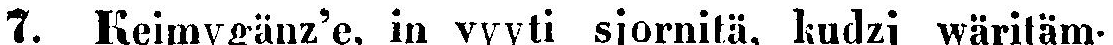7. Keimygänz'e, in vyyti sjornitä, kudzj wäritäm-
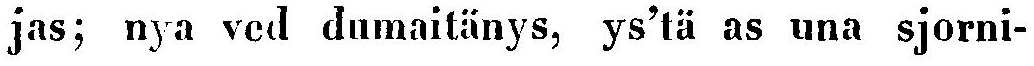jas; nya ved dumaitänys, ys'tä as una sjorni-
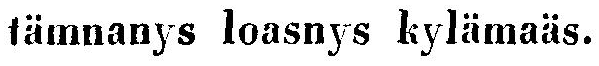tämnanys loasnys kylämaäs.
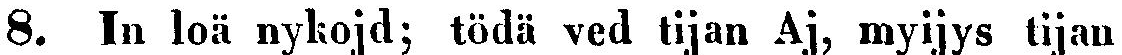8. In loä nykojd; tödä ved tijan Aj, myijys tijan
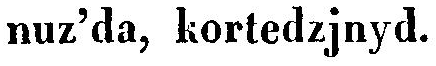nuz'da, kortedzjnyd.
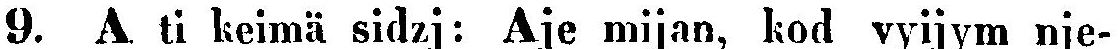9. A ti keimä sidzj: Aje mijan, kod vyijym nje-
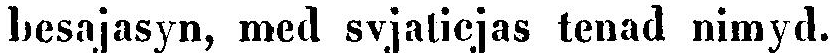besajasyn, med svjaticjas tenad nimyd.
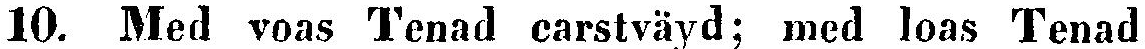10. Med voas Tenad carstväyd; med loas Tenad
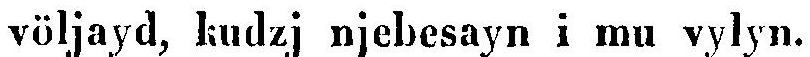völjayd, kudzj njebesayn i mu vylyn.
